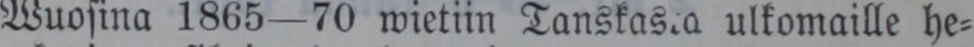Wuosina 1865—70 wietiin Tanskasra ulkomaille he-
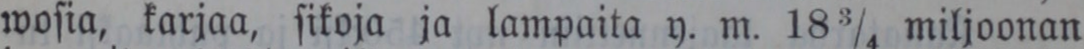wosia, karjaa, sikoja ja lampaita y. m. 18¾ miljoonan
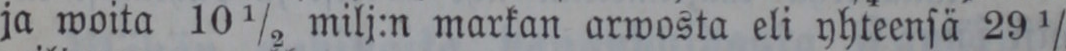ja woita 10½ milj:n markan arwosta eli yhteensä 29¼
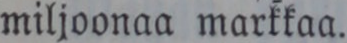miljoonaa markkaa.
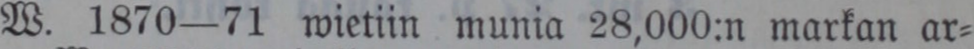W. 1870-71 wietiin munia 28,000:n markan ar-
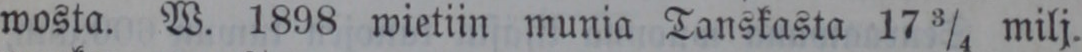wosta. W. 1898 wietiin munia Tanskasta 17¾ milj.
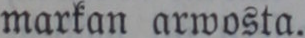markan arwosta.
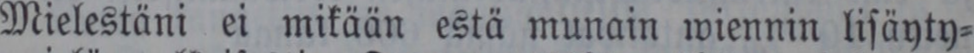Mielestäni ei mikään estä munain wiennin lisäyty-
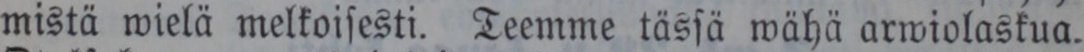mistä wielä melkoisesti. Teemme tässä wähä arwiolaskua.
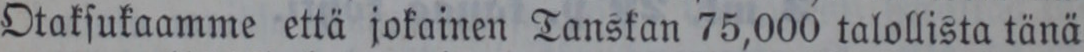Otaksukaamme että jokainen Tanskan 75,000 talollista tänä
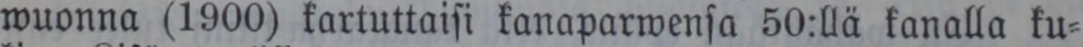wuonna (1900) kartuttaisi kanaparwensa 50:llä kanalla ku-
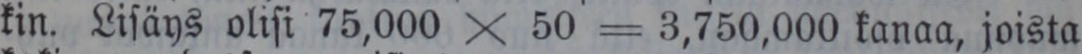kin. Lisäys olisi 75,000 × 50 = 3,750,000 kanaa, joista
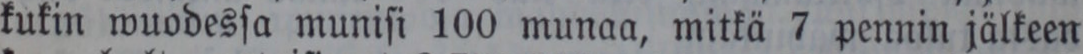kukin wuodessa munisi 100 munaa, mitkä 7 pennin jälkeen
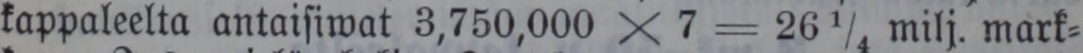kappaleelta antaisiwat 3,750,000 × 7 = 26¼ milj. mark-
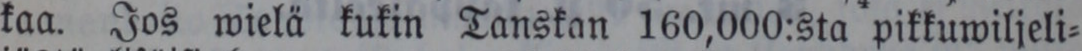kaa. Jos wielä kukin Tanskan 160,000:sta pikkuwiljeli-
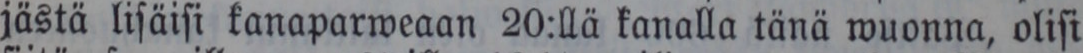jästä lisäisi kanaparweaan 20:llä kanalla tänä wuonna, olisi
